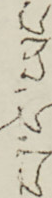པ་དེ་ཡང་
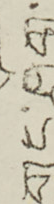གུང་ཤོག་
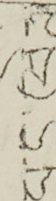བྱང་ཝེཊ་
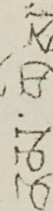ནམ་གྱིས་
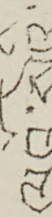ལའོ་སེའི་
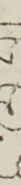ངོ་ལོག་
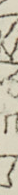པ་རྣམས་
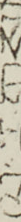ལ་རོགས་
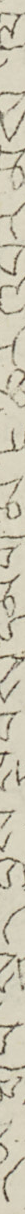རམ་རྒྱཔ་སྐྱོར་བྱས་སྟབས་དམག་མེ་ཇེ་ཆེར་འབར་མུས་ལ་
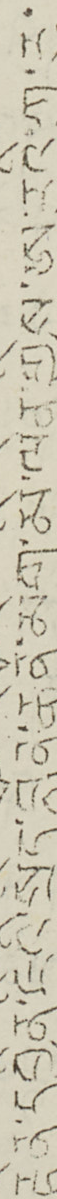རྟེན་དབྱིན་ཇིའི་སྲིད་བློན་ཆེནོ་མེག་མི་ལེན་གྱིས་ཨུ་རུའི་ཀུ་རུ་
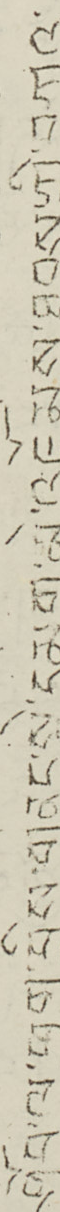ཤོབ་ལ་ཕྱག་བྲིས་གནང་སྟེ་དམག་མེ་འཇོམས་ཐབས་ཀྱི་བཀའ་
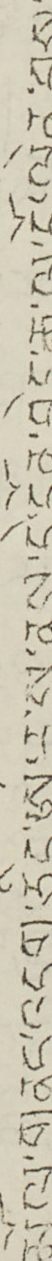མོལ་གནང་འདུག་ཅིང་ཨུ་རུ་སུ་ནས་དེ་དོན་བྱེད་རྒྱུ་ལ་ངོ་ལེན་བྱས་
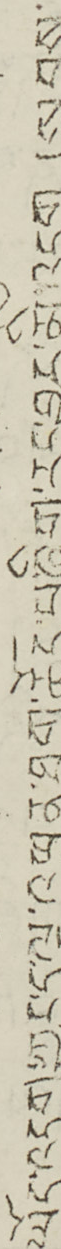ཡོད་འདུག་ཀྱང་ད་ལྟ་འཕྲུན་ཐག་ཆོད་པ་ཞིག་རང་བྱུང་མི་འདུག །སྐབས་
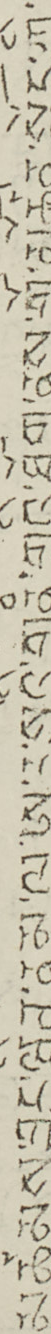མཚམས་བྱང་ཝིཊ་ནམ་ལ་ཨུ་རུ་སུའི་གནཾ་གྲུའི་ཐོག་ནས་གོ་མཚོན་སྤྲོད་ཀྱི་
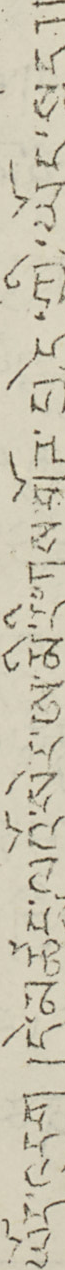ཡོད་འདུག །དེ་མཚུངས་ལའོ་སེར་ཨ་མི་རི་ཀས་གྲོཊ་བྱེད་ཀྱི་ཡོད་སྐད།།
